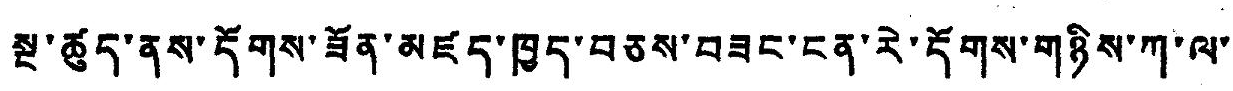སྔ་ཚུད་ནས་དོགས་ཟོན་མཛད་ཁྱད་བཅས་བཟང་ངན་རེ་དོགས་གཉིས་ཀ་ལ་
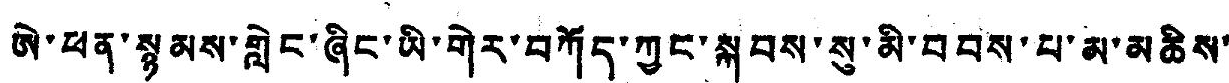ཨེ་ཕན་སྙམས་གླེང་ཞིང་ཡི་གེར་བཀོད་ཀྱང་སྐབས་སུ་མི་བབས་པ་མ་མཆིས་
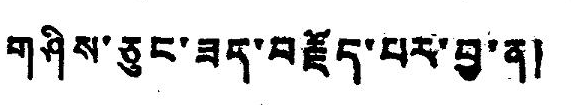གཤིས་ཅུང་ཟད་བརྗོད་པར་བྱ་ན།
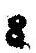8
